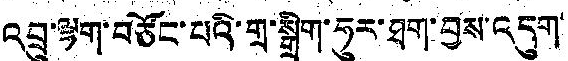འབྲུ་ལྷག་བཙོང་པའི་གྲ་སྒྲིག་ཧུར་ཐག་བྱས་འདུག
